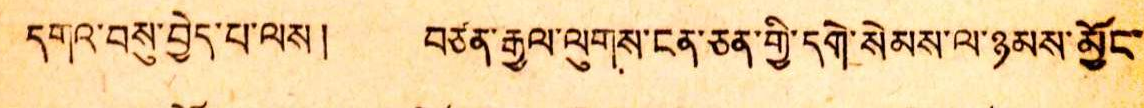དགའ་བསུ་བྱེད་པ་ལས ། བཙན་རྒྱལ་ལུགས་ངན་ཅན་གྱི་དགེ་སེམས་ལ་ཉམས་མྱོང་
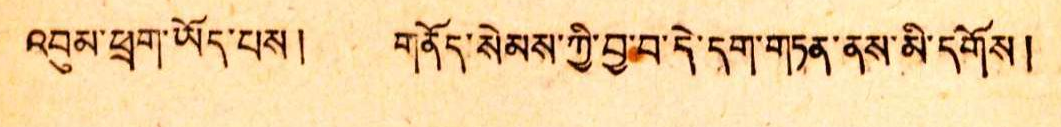འབུམ་ཕྲག་ཡོད་པས ། གནོད་སེམས་ཀྱི་བྱ་བ་དེ་དག་གཏན་ནས་མི་དགོས །
